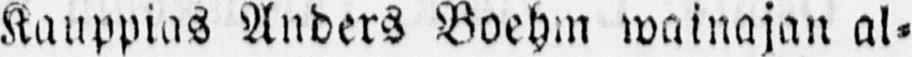Kauppias Anders Boehm wainajan al-
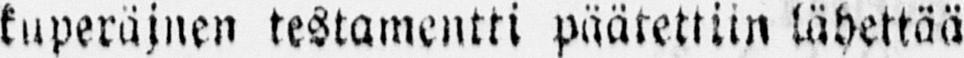kuperäinen testamentti päätettiin lähettää
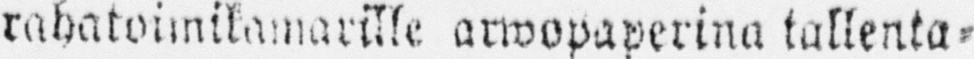rahatoimikamarille arwopaperina tallenta-
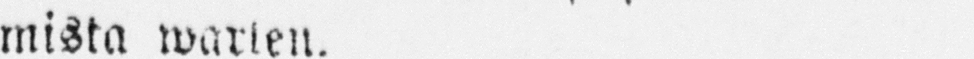mista warten.
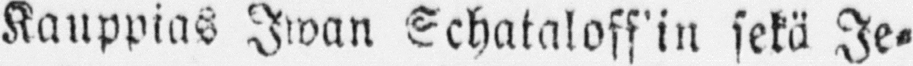Kauppias Iwan Schataloff'in sekä Je-
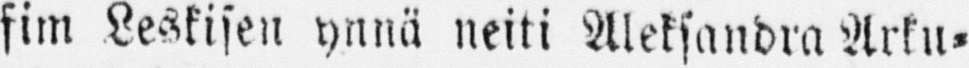fim Leskisen ynnä neiti Aleksandra Arku-
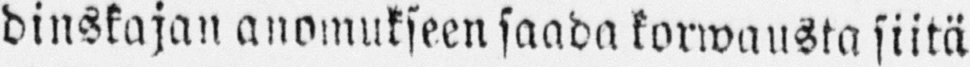dinskajan anomukseen saada korwausta siitä
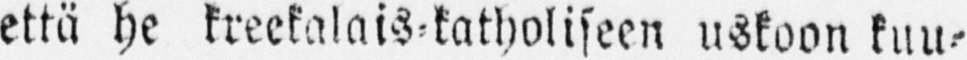että he kreekalais-katholiseen uskoon kuu-
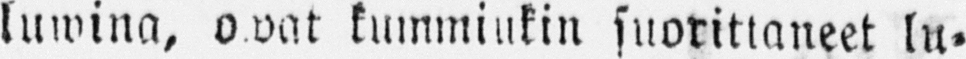luwina, owat kummiukin suorittaneet lu-
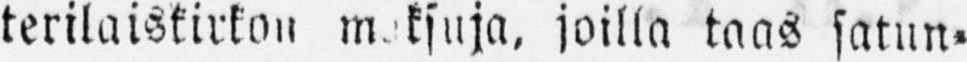terilaiskirkon maksuja, joilla taas satun-
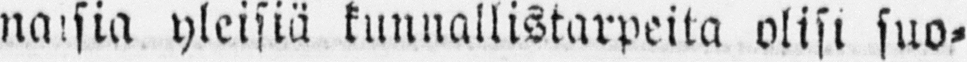naisia yleisiä kunnallistarpeita olisi suo-
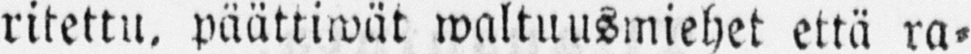ritettu, päättiwät waltuusmiehet että ra-
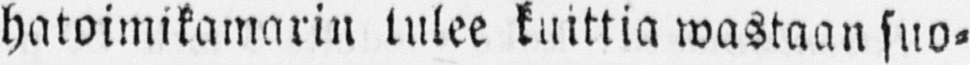hatoimikamarin tulee kuittia wastaan suo-
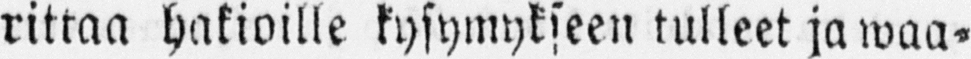rittaa hakioille kysymykseen tulleet ja waa-
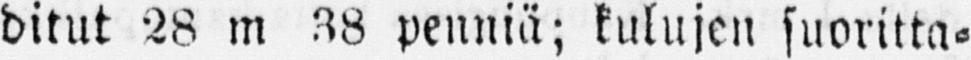ditut 28 m 38 penniä; kulujen suoritta-
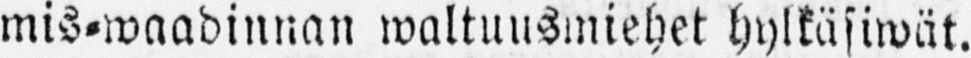mis-waadinnan waltuusmiehet hylkäsiwät.
